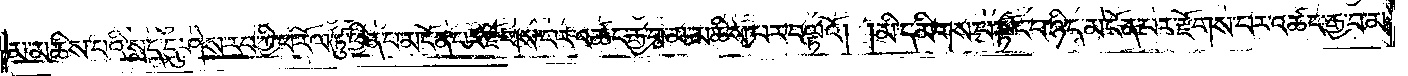མ་མཆིས་པའི་སླད་དུ་ཤེས་རབ་ཀྱི་ཕ་རོལ་ཏུ་ཕྱིན་པ་མངོན་པར་རྫོགས་པར་འཚང་རྒྱ་བ་མ་མཆིས་པར་བལྟའོ། །མི་དམིགས་པ་སྟོང་པ་ཉིད་མངོན་པར་རྫོགས་པར་འཚང་རྒྱ་བ་མ་
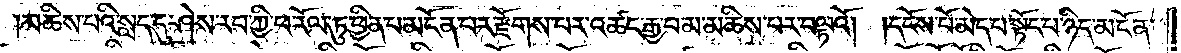མཆིས་པའི་སླད་དུ་ཤེས་རབ་ཀྱི་ཕ་རོལ་ཏུ་ཕྱིན་པ་མངོན་པར་རྫོགས་པར་འཚང་རྒྱ་བ་མ་མཆིས་པར་བལྟའོ། །དངོས་པོ་མེད་པ་སྟོང་པ་ཉིད་མངོན་
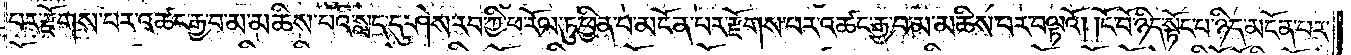པར་རྫོགས་པར་འཚང་རྒྱ་བ་མ་མཆིས་པའི་སླད་དུ་ཤེས་རབ་ཀྱི་ཕ་རོལ་ཏུ་ཕྱིན་པ་མངོན་པར་རྫོགས་པར་འཚང་རྒྱ་བ་མ་མཆིས་པར་བལྟའོ། །ངོ་བོ་ཉིད་སྟོང་པ་ཉིད་མངོན་པར་
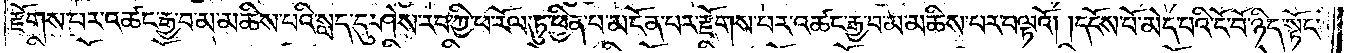རྫོགས་པར་འཚང་རྒྱ་བ་མ་མཆིས་པའི་སླད་དུ་ཤེས་རབ་ཀྱི་ཕ་རོལ་ཏུ་ཕྱིན་པ་མངོན་པར་རྫོགས་པར་འཚང་རྒྱ་བ་མ་མཆིས་པར་བལྟའོ། །དངོས་པོ་མེད་པའི་ངོ་བོ་ཉིད་སྟོང་
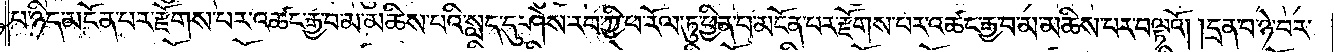པ་ཉིད་མངོན་པར་རྫོགས་པར་འཚང་རྒྱ་བ་མ་མཆིས་པའི་སླད་དུ་ཤེས་རབ་ཀྱི་ཕ་རོལ་ཏུ་ཕྱིན་པ་མངོན་པར་རྫོགས་པར་འཚང་རྒྱ་བ་མ་མཆིས་པར་བལྟའོ། །དྲན་པ་ཉེ་བར་
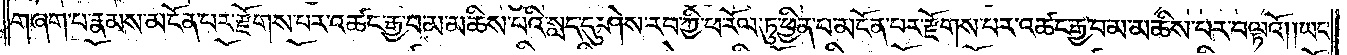གཞག་པ་རྣམས་མངོན་པར་རྫོགས་པར་འཚང་རྒྱ་བ་མ་མཆིས་པའི་སླད་དུ་ཤེས་རབ་ཀྱི་ཕ་རོལ་ཏུ་ཕྱིན་པ་མངོན་པར་རྫོགས་པར་འཚང་རྒྱ་བ་མ་མཆིས་པར་བལྟའོ། །ཡང་
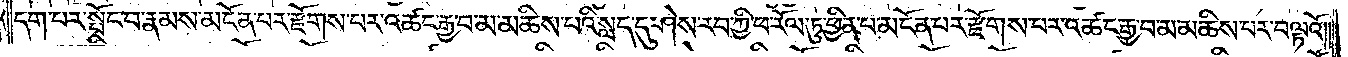དག་པར་སྤོང་བ་རྣམས་མངོན་པར་རྫོགས་པར་འཚང་རྒྱ་བ་མ་མཆིས་པའི་སླད་དུ་ཤེས་རབ་ཀྱི་ཕ་རོལ་ཏུ་ཕྱིན་པ་མངོན་པར་རྫོགས་པར་འཚང་རྒྱ་བ་མ་མཆིས་པར་བལྟའོ། །
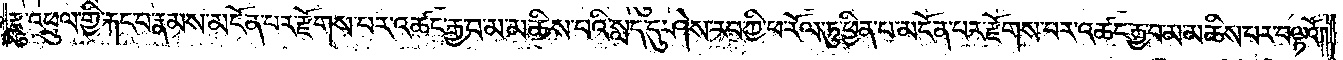རྫུ་འཕྲུལ་གྱི་རྐང་པ་རྣམས་མངོན་པར་རྫོགས་པར་འཚང་རྒྱ་བ་མ་མཆིས་པའི་སླད་དུ་ཤེས་རབ་ཀྱི་ཕ་རོལ་ཏུ་ཕྱིན་པ་མངོན་པར་རྫོགས་པར་འཚང་རྒྱ་བ་མ་མཆིས་པར་བལྟའོ། །
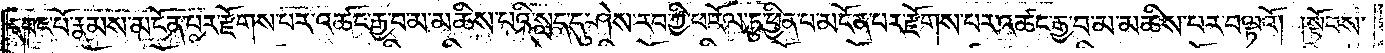དབང་པོ་རྣམས་མངོན་པར་རྫོགས་པར་འཚང་རྒྱ་བ་མ་མཆིས་པའི་སླད་དུ་ཤེས་རབ་ཀྱི་ཕ་རོལ་ཏུ་ཕྱིན་པ་མངོན་པར་རྫོགས་པར་འཚང་རྒྱ་བ་མ་མཆིས་པར་བལྟའོ། །སྟོབས་
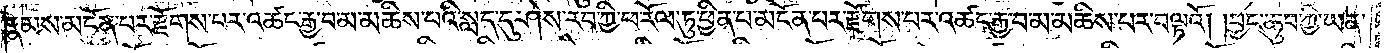རྣམས་མངོན་པར་རྫོགས་པར་འཚང་རྒྱ་བ་མ་མཆིས་པའི་སླད་དུ་ཤེས་རབ་ཀྱི་ཕ་རོལ་ཏུ་ཕྱིན་པ་མངོན་པར་རྫོགས་པར་འཚང་རྒྱ་བ་མ་མཆིས་པར་བལྟའོ། །བྱང་ཆུབ་ཀྱི་ཡན་
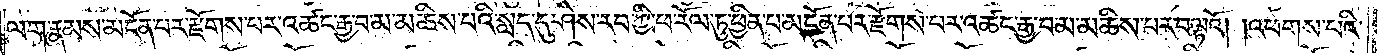ལག་རྣམས་མངོན་པར་རྫོགས་པར་འཚང་རྒྱ་བ་མ་མཆིས་པའི་སླད་དུ་ཤེས་རབ་ཀྱི་ཕ་རོལ་ཏུ་ཕྱིན་པ་མངོན་པར་རྫོགས་པར་འཚང་རྒྱ་བ་མ་མཆིས་པར་བལྟའོ། །འཕགས་པའི་
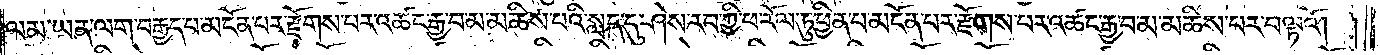ལམ་ཡན་ལག་བརྒྱད་པ་མངོན་པར་རྫོགས་པར་འཚང་རྒྱ་བ་མ་མཆིས་པའི་སླད་དུ་ཤེས་རབ་ཀྱི་ཕ་རོལ་ཏུ་ཕྱིན་པ་མངོན་པར་རྫོགས་པར་འཚང་རྒྱ་བ་མ་མཆིས་པར་བལྟའོ། །
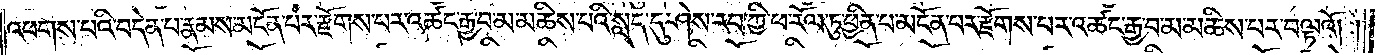འཕགས་པའི་བདེན་པ་རྣམས་མངོན་པར་རྫོགས་པར་འཚང་རྒྱ་བ་མ་མཆིས་པའི་སླད་དུ་ཤེས་རབ་ཀྱི་ཕ་རོལ་ཏུ་ཕྱིན་པ་མངོན་པར་རྫོགས་པར་འཚང་རྒྱ་བ་མ་མཆིས་པར་བལྟའོ། །
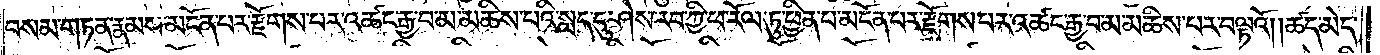བསམ་གཏན་རྣམས་མངོན་པར་རྫོགས་པར་འཚང་རྒྱ་བ་མ་མཆིས་པའི་སླད་དུ་ཤེས་རབ་ཀྱི་ཕ་རོལ་ཏུ་ཕྱིན་པ་མངོན་པར་རྫོགས་པར་འཚང་རྒྱ་བ་མ་མཆིས་པར་བལྟའོ། །ཚད་མེད་
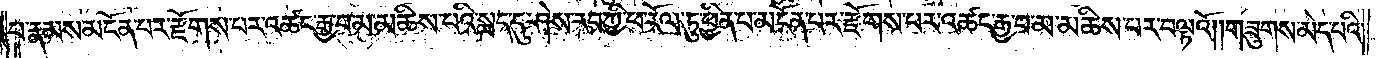པ་རྣམས་མངོན་པར་རྫོགས་པར་འཚང་རྒྱ་བ་མ་མཆིས་པའི་སླད་དུ་ཤེས་རབ་ཀྱི་ཕ་རོལ་ཏུ་ཕྱིན་པ་མངོན་པར་རྫོགས་པར་འཚང་རྒྱ་བ་མ་མཆིས་པར་བལྟའོ། །གཟུགས་མེད་པའི་
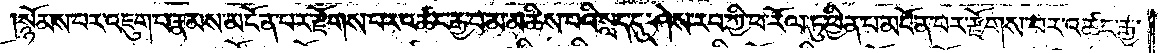སྙོམས་པར་འཇུག་པ་རྣམས་མངོན་པར་རྫོགས་པར་འཚང་རྒྱ་བ་མ་མཆིས་པའི་སླད་དུ་ཤེས་རབ་ཀྱི་ཕ་རོལ་ཏུ་ཕྱིན་པ་མངོན་པར་རྫོགས་པར་འཚང་རྒྱ་
